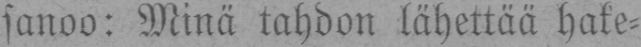sanoo: Minä tahdon lähettää hake-
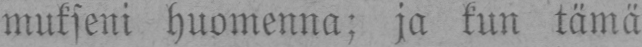mukseni huomenna; ja kun tämä
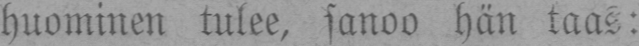huominen tulee, sanoo hän taas:
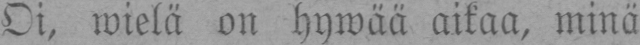Oi, wielä on hywää aikaa, minä
